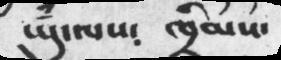ཡུཾ་ལས༴ ཁྲིམས་
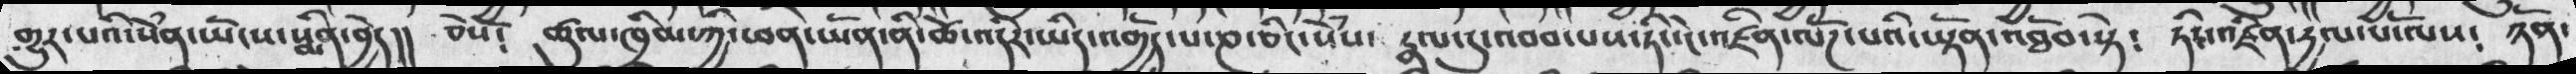གྱུར་པའི་སེཾན་ཡོངས་སྨིན་བྱེད།། ཅེསོ༴ ཚུལ་ཁྲིམས་ཀྱི་ཕན་ཡོན་ནི་ཚེ་འདིར་ཡིད་འགྱོད་པ་ཎ་ཅིང་སེཾས་ རྣལ་དུ་འབབ་པས་ཏིང་ངེ་འཛིན་ལོཌ་པའི་ཡྟོན་འཐོབ་སྟེ༴ ཏིང་འཛིན་དྱལ་པོ་ལས༴ ཉོན་
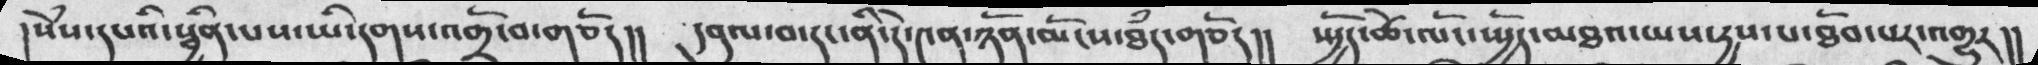།སེཾས་དཔའི་སྦྱིན་པས་ཡི་དགས་འགྲོ་བ་གཅོད།།  དབུལ་བ་དང་ནི་དེ་༤ན་ཉོན་མོངས་ཐཾད་གཅོད།།  སྤྱོད་ཚེ་ལོང་སྤྱོད་མཐའ་ཡས་དྱས་པ་ཐོབ་པར་འགྱུར།།
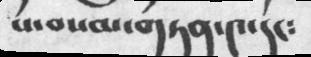པ་བསམ་གཏན་༤་དང༴
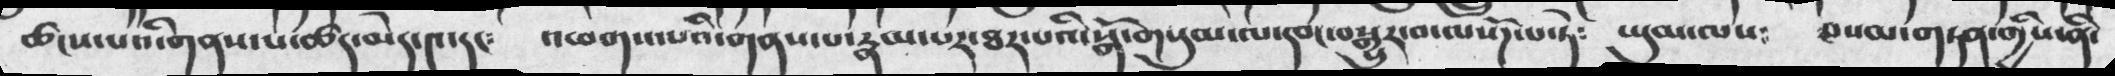ཚངས་པའི་གནས་པ་ཚད་མེད་༤་དང༴  འཕགས་པའི་གནས་པ་རྣམ་པར་ཐར་པའི་སྒོ་གསུམ་ལ་དབང་བསྒྱུར་བ་ལསོཌ་པ་ཏེ༴  ཡུམ་ལས༴  བསམ་གཏན་གྱིས་ནི་
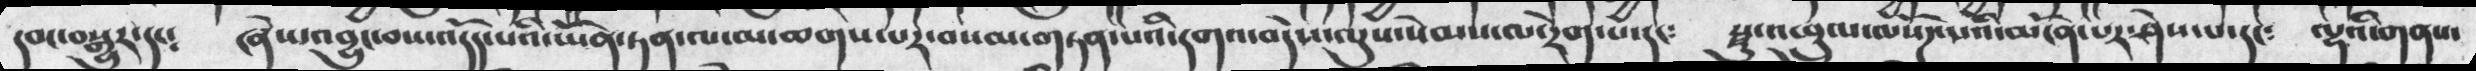དབང་བསྒྱུར་དང༴  ཞེས་འབྱུང་བས་འདོད་པའི་ཡོན་ཏན་ལ་མ་ཆགས་པར་བསམ་གཏན་པའི་དགའ་བདེས་ལུས་སེམས་ལ་རེག་པ་དང༴  སྫུ་འཕྲུལ་ལསོཌ་པའི་མངོན་པར་ཤེས་པ་དང༴  ལྷའི་གནས་
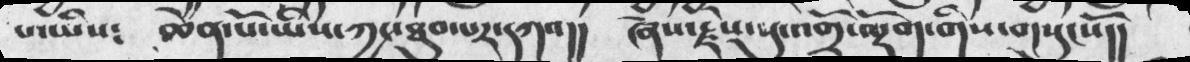པ་ཡིས༴ ཆེན་པོ་ཡིས་ཀྱང་ཐུབ་པར་དཀའ།། ཞེས་རྗེས་སུ་འགྲོ་ལྡོག་གིས་གསུངསོ།།
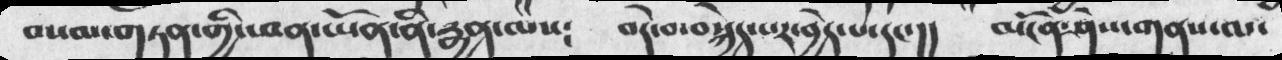བསམ་གཏན་གྱི་ཕན་ཡོན་ནི་རྒྱན་ལས༴  བདེ་བ་བསྐྱེད་པར་བྱེད་པ་དང་།།  མངོན་ཤེས་གནས་ལ་
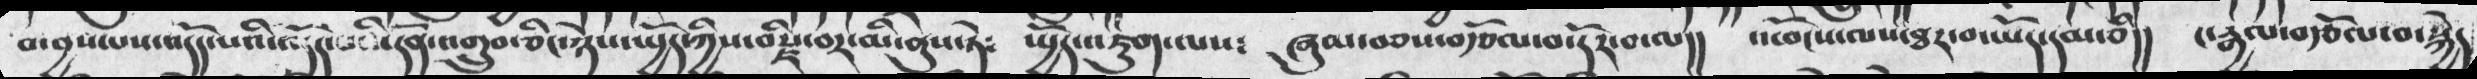བ་བྱས་པས་འདོད་པའི་འདོད་པའི་དོན་འགྲུབ་ཅིང་ཉེས་སྤྱོད་ཀྱི་བརྫི་བར་མི་ནུས་ཏེ༴   སྤྱོད་འཇུག་ལས༴   ཞུམ་བཅས་བརྩོལ་བ་དོར་བ་ལ།།  འཕོངས་ལས་ཐར་བ་ཡོད་དམ་ཅི།།   ང་རྒྱལ་བརྩོལ་བ་སྐྱེད
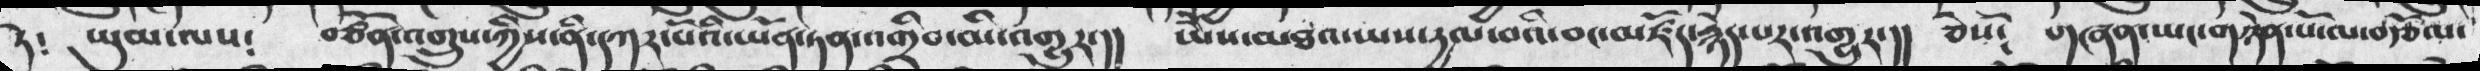ཏེ༴ ཡུམ་ལས༴ བཙོན་འགྲུས་ཀྱིས་ནི་དཀར་པོའི་ཡོན་ཏན་འགྲིབ་མི་འགྱུར་།། ཡཻས་མཐའ་ཡས་དྱལ་བའི་བང་མཛོད་རྙེད་པར་འགྱུར་།། ཅེསོ༴ གཞན་ཡང་གཉེན་པོ་ལ་བརྩོལ་
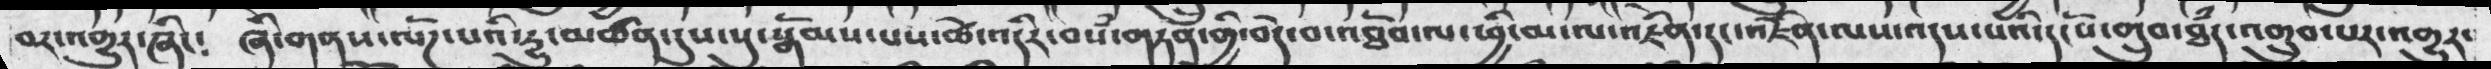བར་འགྱུར་ཞིང༴ ཞི་གནས་ལོཌ་པའི་རྱུ་མཚན་དུས་སུ་སྒོམས་པས་ཚེ་འདིར་བསཾ་གཏན་གྱི་བདེ་བ་འཐོབ་ལ་ཕྱི་མ་ལ་འཇིན་དང་འཇིན་ལས་འདས་པའི་དངོས་གྲུབ་ཐཾད་འགྲུབ་པར་འགྱུར་
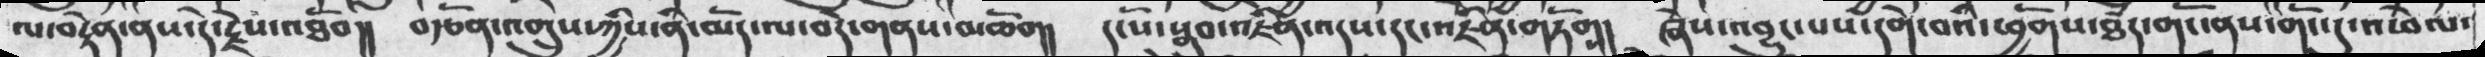ལ་བརྟེན་ནས་དེ་རྗེས་འཐོབ།། བརྩོན་འགྲུས་ཀྱིས་ནི་མོད་ལ་བདེ་གནས་མཆོག། དངོས་སྒྲུབ་འཛིན་འདས་དང་འཛིན་གཏོག། ཞེས་འབྱུང་པས་དགེ་བའི་ཕྱོགས་ཐཾད་གོང་ནས་གོང་དུ་འཕེལ་
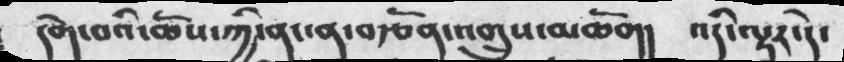དགེ་བའི་ཆོས་ཀྱི་ནང་ན་བརྩོན་འགྲུས་མཆོག། འདི་ལྟར་དེ་
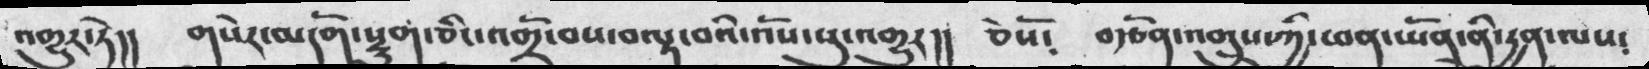འགྱུར་ཏེ།། གསེར་མདོག་སྡུག་ཅིང་འགྲོ་བས་བལྟ་བའི་འོས་སུ་འགྱུར།། ཅེསོ༴ བརྩོན་འགྲུས་ཀྱི་ཕན་ཡོན་ནི་དྱན་ལས༴
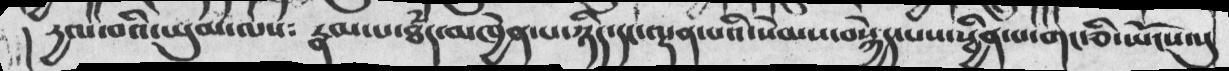། དྱལ་བའི་ཡུམ་ལས༴  རྣམ་པ་ཐཾད་མཁྱེན་པ་ཉིད་དང་ལྡན་པའི་སེམས་བསྐྱེད་པས་སྦྱིན་པ་གང་ཅི་ཡོངས་སུ
